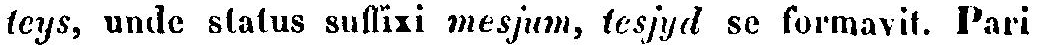teys, unde status suffixi mesjum, tesjyd se formavit. Pari
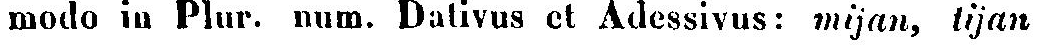modo in Plur. num. Dativus et Adessivus: mijan, tijan
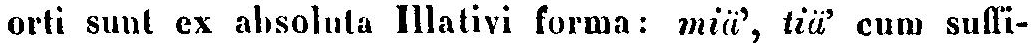orti sunt ex absoluta Illativi forma: miä', tiä' cum suffi-
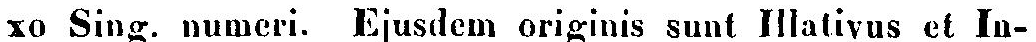xo Sing. numeri. Ejusdem originis sunt Illativus et In-
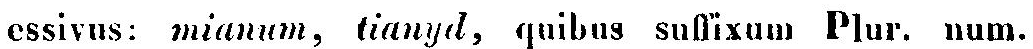essivus: mianum, tianyd, quibus suffixum Plur. num.
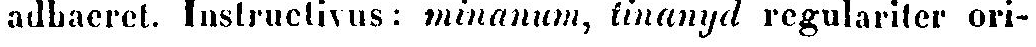adbaeret. Instructivus: minanum, tinanyd regulariter ori-
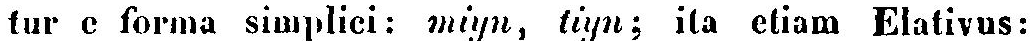tur e forma simplici: miyn, tiyn; ita etiam Elativus:
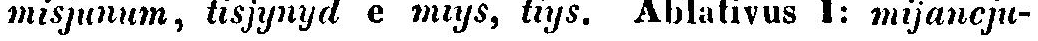misjunum, tisjynyd e miys, tiys. Ablativus 1: mijancju-
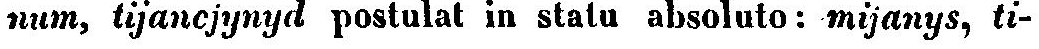num, tijancjynyd postulat in statu absoluto: mijanys, ti-
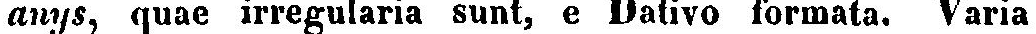anys, quae irregularia sunt, e Dativo formata. Varia
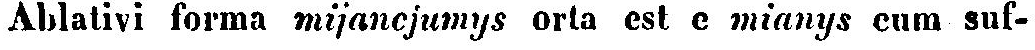Ablativi forma mijancjumys orta est e mianys cum suf-
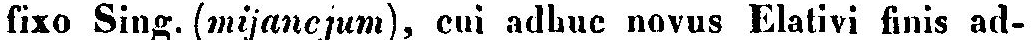fixo Sing. (mijancjum), cui adhuc novus Elativi finis ad-
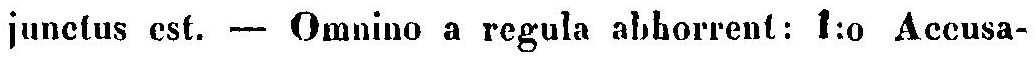junctus est. — Omnino a regula abhorrent: 1:o Accusa-
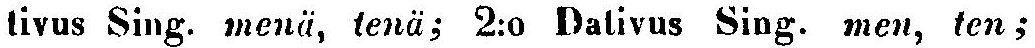tivus Sing. menä, tenä; 2:o Dativus Sing. men, ten;
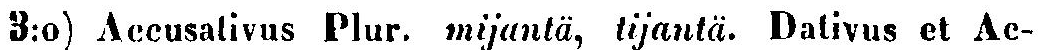3:o) Accusalivus Plur. mijantä, tijantä. Dativus et Ac-
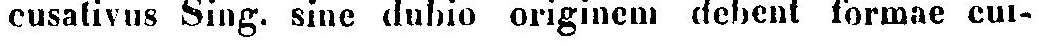cusativus Sing. sine dubio originem debent formae cui-
